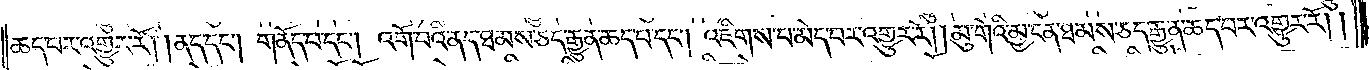ཆད་པར་འགྱུར་རོ། །ནད་དང༌། གནོད་པ་དང༌། འགོ་བའི་ནད་ཐམས་ཅད་རྒྱུན་ཆད་པ་དང༌། འཇིགས་པ་མེད་པར་འགྱུར་རོ། །མུ་གེའི་མྱ་ངན་ཐམས་ཅད་རྒྱུན་ཆད་པར་འགྱུར་རོ། །
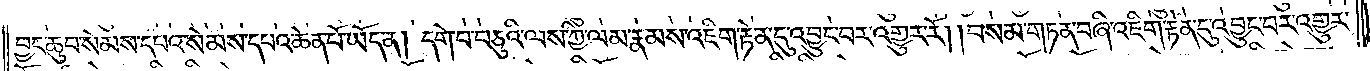བྱང་ཆུབ་སེམས་དཔའ་སེམས་དཔའ་ཆེན་པོ་ཡོད་ན། དགེ་བ་བཅུའི་ལས་ཀྱི་ལམ་རྣམས་འཇིག་རྟེན་དུ་འབྱུང་བར་འགྱུར་རོ། །བསམ་གཏན་བཞི་འཇིག་རྟེན་དུ་འབྱུང་བར་འགྱུར་
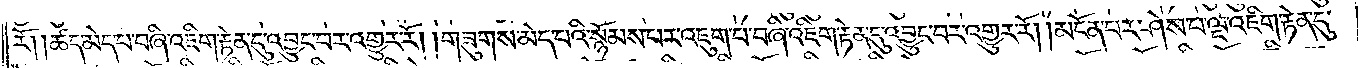རོ། །ཚད་མེད་པ་བཞི་འཇིག་རྟེན་དུ་འབྱུང་བར་འགྱུར་རོ། །གཟུགས་མེད་པའི་སྙོམས་པར་འཇུག་པ་བཞི་འཇིག་རྟེན་དུ་འབྱུང་བར་འགྱུར་རོ། །མངོན་པར་ཤེས་པ་ལྔ་འཇིག་རྟེན་དུ་
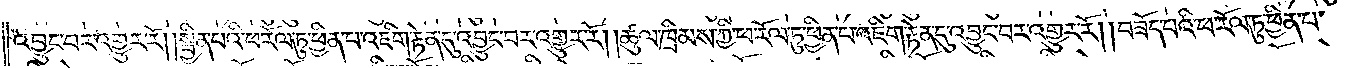འབྱུང་བར་འགྱུར་རོ། །སྦྱིན་པའི་ཕ་རོལ་ཏུ་ཕྱིན་པ་འཇིག་རྟེན་དུ་འབྱུང་བར་འགྱུར་རོ། །ཚུལ་ཁྲིམས་ཀྱི་ཕ་རོལ་ཏུ་ཕྱིན་པ་འཇིག་རྟེན་དུ་འབྱུང་བར་འགྱུར་རོ། །བཟོད་པའི་ཕ་རོལ་ཏུ་ཕྱིན་པ་
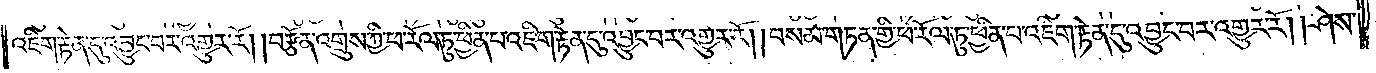འཇིག་རྟེན་དུ་འབྱུང་བར་འགྱུར་རོ། །བརྩོན་འགྲུས་ཀྱི་ཕ་རོལ་ཏུ་ཕྱིན་པ་འཇིག་རྟེན་དུ་འབྱུང་བར་འགྱུར་རོ། །བསམ་གཏན་གྱི་ཕ་རོལ་ཏུ་ཕྱིན་པ་འཇིག་རྟེན་དུ་འབྱུང་བར་འགྱུར་རོ། །ཤེས་
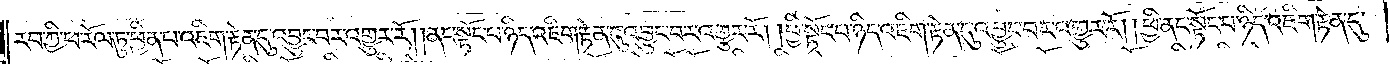རབ་ཀྱི་ཕ་རོལ་ཏུ་ཕྱིན་པ་འཇིག་རྟེན་དུ་འབྱུང་བར་འགྱུར་རོ། །ནང་སྟོང་པ་ཉིད་འཇིག་རྟེན་དུ་འབྱུང་བར་འགྱུར་རོ། །ཕྱི་སྟོང་པ་ཉིད་འཇིག་རྟེན་དུ་འབྱུང་བར་འགྱུར་རོ། །ཕྱི་ནང་སྟོང་པ་ཉིད་འཇིག་རྟེན་དུ་
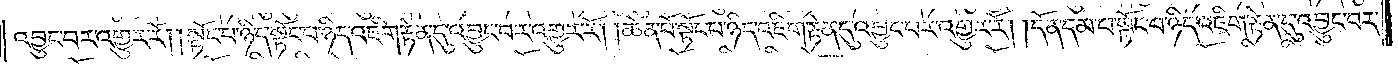འབྱུང་བར་འགྱུར་རོ། །སྟོང་པ་ཉིད་སྟོང་པ་ཉིད་འཇིག་རྟེན་དུ་འབྱུང་བར་འགྱུར་རོ། །ཆེན་པོ་སྟོང་པ་ཉིད་འཇིག་རྟེན་དུ་འབྱུང་བར་འགྱུར་རོ། །དོན་དམ་པ་སྟོང་པ་ཉིད་འཇིག་རྟེན་དུ་འབྱུང་བར་
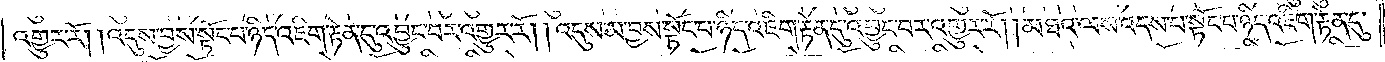འགྱུར་རོ། །འདུས་བྱས་སྟོང་པ་ཉིད་འཇིག་རྟེན་དུ་འབྱུང་བར་འགྱུར་རོ། །འདུས་མ་བྱས་སྟོང་པ་ཉིད་འཇིག་རྟེན་དུ་འབྱུང་བར་འགྱུར་རོ། །མཐའ་ལས་འདས་པ་སྟོང་པ་ཉིད་འཇིག་རྟེན་དུ་
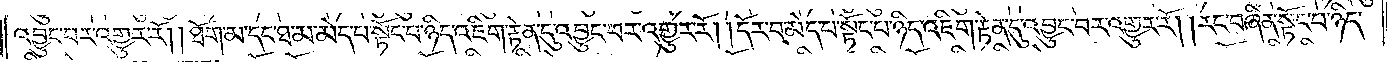འབྱུང་བར་འགྱུར་རོ། །ཐོག་མ་དང་ཐ་མ་མེད་པ་སྟོང་པ་ཉིད་འཇིག་རྟེན་དུ་འབྱུང་བར་འགྱུར་རོ། །དོར་བ་མེད་པ་སྟོང་པ་ཉིད་འཇིག་རྟེན་དུ་འབྱུང་བར་འགྱུར་རོ། །རང་བཞིན་སྟོང་པ་ཉིད་
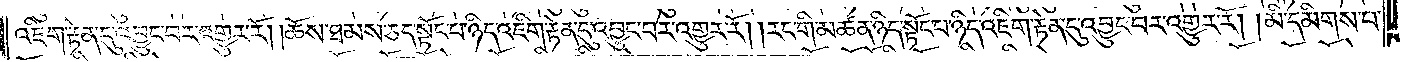འཇིག་རྟེན་དུ་འབྱུང་བར་འགྱུར་རོ། །ཆོས་ཐམས་ཅད་སྟོང་པ་ཉིད་འཇིག་རྟེན་དུ་འབྱུང་བར་འགྱུར་རོ། །རང་གི་མཚན་ཉིད་སྟོང་པ་ཉིད་འཇིག་རྟེན་དུ་འབྱུང་བར་འགྱུར་རོ། །མི་དམིགས་པ་
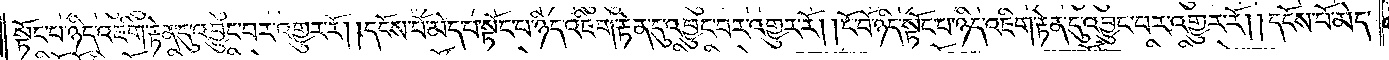སྟོང་པ་ཉིད་འཇིག་རྟེན་དུ་འབྱུང་བར་འགྱུར་རོ། །དངོས་པོ་མེད་པ་སྟོང་པ་ཉིད་འཇིག་རྟེན་དུ་འབྱུང་བར་འགྱུར་རོ། །ངོ་བོ་ཉིད་སྟོང་པ་ཉིད་འཇིག་རྟེན་དུ་འབྱུང་བར་འགྱུར་རོ། །དངོས་པོ་མེད་
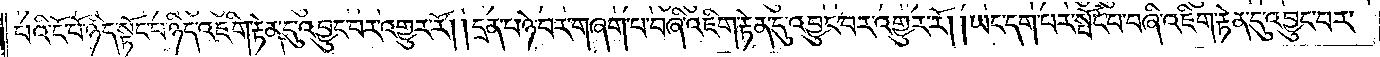པའི་ངོ་བོ་ཉིད་སྟོང་པ་ཉིད་འཇིག་རྟེན་དུ་འབྱུང་བར་འགྱུར་རོ། །དྲན་པ་ཉེ་བར་གཞག་པ་བཞི་འཇིག་རྟེན་དུ་འབྱུང་བར་འགྱུར་རོ། །ཡང་དག་པར་སྤོང་བ་བཞི་འཇིག་རྟེན་དུ་འབྱུང་བར་
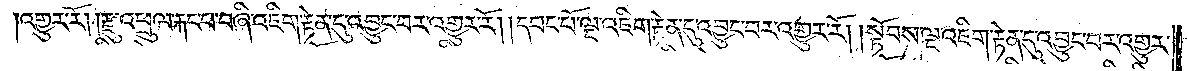འགྱུར་རོ། །རྫུ་འཕྲུལ་གྱི་རྐང་པ་བཞི་འཇིག་རྟེན་དུ་འབྱུང་བར་འགྱུར་རོ། །དབང་པོ་ལྔ་འཇིག་རྟེན་དུ་འབྱུང་བར་འགྱུར་རོ། །སྟོབས་ལྔ་འཇིག་རྟེན་དུ་འབྱུང་བར་འགྱུར་
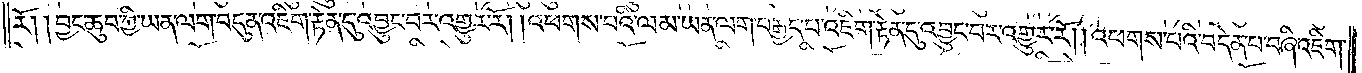རོ། །བྱང་ཆུབ་ཀྱི་ཡན་ལག་བདུན་འཇིག་རྟེན་དུ་འབྱུང་བར་འགྱུར་རོ། །འཕགས་པའི་ལམ་ཡན་ལག་བརྒྱད་པ་འཇིག་རྟེན་དུ་འབྱུང་བར་འགྱུར་རོ། །འཕགས་པའི་བདེན་པ་བཞི་འཇིག་
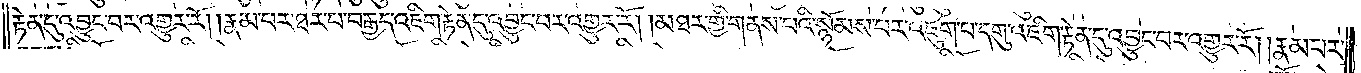རྟེན་དུ་འབྱུང་བར་འགྱུར་རོ། །རྣམ་པར་ཐར་པ་བརྒྱད་འཇིག་རྟེན་དུ་འབྱུང་བར་འགྱུར་རོ། །མཐར་གྱིས་གནས་པའི་སྙོམས་པར་འཇུག་པ་དགུ་འཇིག་རྟེན་དུ་འབྱུང་བར་འགྱུར་རོ། །རྣམ་པར་
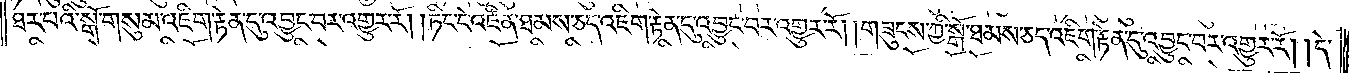ཐར་པའི་སྒོ་གསུམ་འཇིག་རྟེན་དུ་འབྱུང་བར་འགྱུར་རོ། །ཏིང་ངེ་འཛིན་ཐམས་ཅད་འཇིག་རྟེན་དུ་འབྱུང་བར་འགྱུར་རོ། །གཟུངས་ཀྱི་སྒོ་ཐམས་ཅད་འཇིག་རྟེན་དུ་འབྱུང་བར་འགྱུར་རོ། །དེ་
